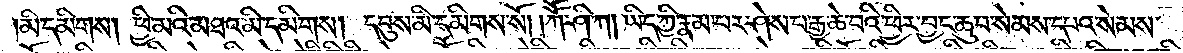མི་དམིགས། ཕྱི་མའི་མཐའ་མི་དམིགས། དབུས་མི་དམིགས་སོ། །ཀཽ་ཤི་ཀ། ཡིད་ཀྱི་རྣམ་པར་ཤེས་པ་རྒྱ་ཆེ་བའི་ཕྱིར་བྱང་ཆུབ་སེམས་དཔའ་སེམས་
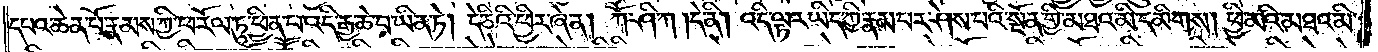དཔའ་ཆེན་པོ་རྣམས་ཀྱི་ཕ་རོལ་ཏུ་ཕྱིན་པ་འདི་རྒྱ་ཆེ་བ་ཡིན་ཏེ། དེ་ཅིའི་ཕྱིར་ཞེ་ན། ཀཽ་ཤི་ཀ །དེ་ནི། འདི་ལྟར་ཡིད་ཀྱི་རྣམ་པར་ཤེས་པའི་སྔོན་གྱི་མཐའ་མི་དམིགས། ཕྱི་མའི་མཐའ་མི་
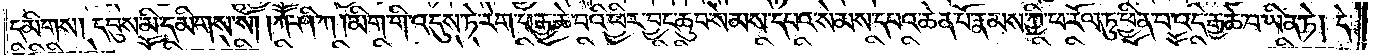དམིགས། དབུས་མི་དམིགས་སོ། །ཀཽ་ཤི་ཀ །མིག་གི་འདུས་ཏེ་རེག་པ་རྒྱ་ཆེ་བའི་ཕྱིར། བྱང་ཆུབ་སེམས་དཔའ་སེམས་དཔའ་ཆེན་པོ་རྣམས་ཀྱི་ཕ་རོལ་ཏུ་ཕྱིན་པ་འདི་རྒྱ་ཆེ་བ་ཡིན་ཏེ། དེ་
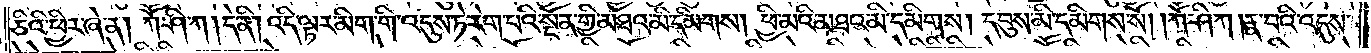ཅིའི་ཕྱིར་ཞེ་ན། ཀཽ་ཤི་ཀ །དེ་ནི། འདི་ལྟར་མིག་གི་འདུས་ཏེ་རེག་པའི་སྔོན་གྱི་མཐའ་མི་དམིགས། ཕྱི་མའི་མཐའ་མི་དམིགས། དབུས་མི་དམིགས་སོ། །ཀཽ་ཤི་ཀ །རྣ་བའི་འདུས་
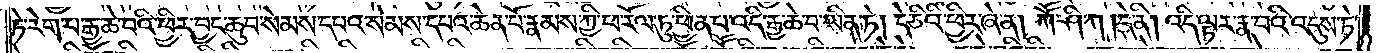ཏེ་རེག་པ་རྒྱ་ཆེ་བའི་ཕྱིར་བྱང་ཆུབ་སེམས་དཔའ་སེམས་དཔའ་ཆེན་པོ་རྣམས་ཀྱི་ཕ་རོལ་ཏུ་ཕྱིན་པ་འདི་རྒྱ་ཆེ་བ་ཡིན་ཏེ། དེ་ཅིའི་ཕྱིར་ཞེ་ན། ཀཽ་ཤི་ཀ །དེ་ནི། འདི་ལྟར་རྣ་བའི་འདུས་ཏེ་
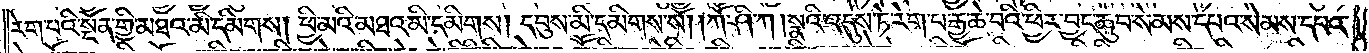རེག་པའི་སྔོན་གྱི་མཐའ་མི་དམིགས། ཕྱི་མའི་མཐའ་མི་དམིགས། དབུས་མི་དམིགས་སོ། །ཀཽ་ཤི་ཀ །སྣའི་འདུས་ཏེ་རེག་པ་རྒྱ་ཆེ་བའི་ཕྱིར་བྱང་ཆུབ་སེམས་དཔའ་སེམས་དཔའ་
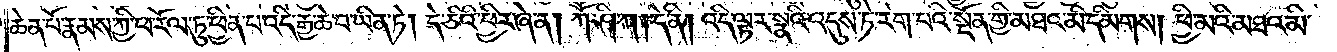ཆེན་པོ་རྣམས་ཀྱི་ཕ་རོལ་ཏུ་ཕྱིན་པ་འདི་རྒྱ་ཆེ་བ་ཡིན་ཏེ། དེ་ཅིའི་ཕྱིར་ཞེ་ན། ཀཽ་ཤི་ཀ །དེ་ནི། འདི་ལྟར་སྣའི་འདུས་ཏེ་རེག་པའི་སྔོན་གྱི་མཐའ་མི་དམིགས། ཕྱི་མའི་མཐའ་མི་
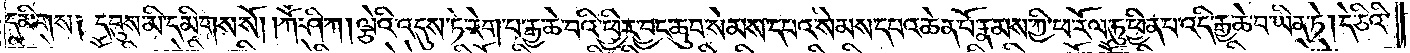དམིགས། དབུས་མི་དམིགས་སོ། །ཀཽ་ཤི་ཀ །ལྕེའི་འདུས་ཏེ་རེག་པ་རྒྱ་ཆེ་བའི་ཕྱིར་བྱང་ཆུབ་སེམས་དཔའ་སེམས་དཔའ་ཆེན་པོ་རྣམས་ཀྱི་ཕ་རོལ་ཏུ་ཕྱིན་པ་འདི་རྒྱ་ཆེ་བ་ཡིན་ཏེ། དེ་ཅིའི་
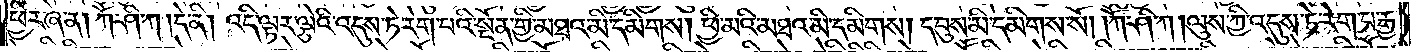ཕྱིར་ཞེ་ན། ཀཽ་ཤི་ཀ །དེ་ནི། འདི་ལྟར་ལྕེའི་འདུས་ཏེ་རེག་པའི་སྔོན་གྱི་མཐའ་མི་དམིགས། ཕྱི་མའི་མཐའ་མི་དམིགས། དབུས་མི་དམིགས་སོ། །ཀཽ་ཤི་ཀ །ལུས་ཀྱི་འདུས་ཏེ་རེག་པ་རྒྱ་
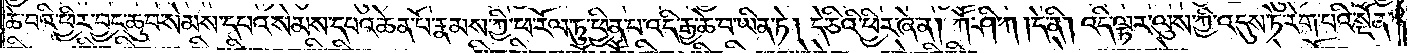ཆེ་བའི་ཕྱིར་བྱང་ཆུབ་སེམས་དཔའ་སེམས་དཔའ་ཆེན་པོ་རྣམས་ཀྱི་ཕ་རོལ་ཏུ་ཕྱིན་པ་འདི་རྒྱ་ཆེ་བ་ཡིན་ཏེ། དེ་ཅིའི་ཕྱིར་ཞེ་ན། ཀཽ་ཤི་ཀ །དེ་ནི། འདི་ལྟར་ལུས་ཀྱི་འདུས་ཏེ་རེག་པའི་སྔོན་
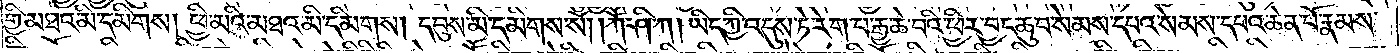གྱི་མཐའ་མི་དམིགས། ཕྱི་མའི་མཐའ་མི་དམིགས། དབུས་མི་དམིགས་སོ། །ཀཽ་ཤི་ཀ། ཡིད་ཀྱི་འདུས་ཏེ་རེག་པ་རྒྱ་ཆེ་བའི་ཕྱིར། བྱང་ཆུབ་སེམས་དཔའ་སེམས་དཔའ་ཆེན་པོ་རྣམས་
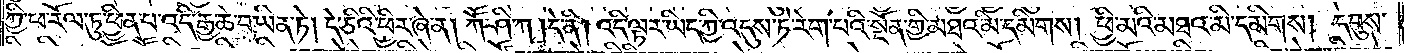ཀྱི་ཕ་རོལ་ཏུ་ཕྱིན་པ་འདི་རྒྱ་ཆེ་བ་ཡིན་ཏེ། དེ་ཅིའི་ཕྱིར་ཞེ་ན། ཀཽ་ཤི་ཀ །དེ་ནི། འདི་ལྟར་ཡིད་ཀྱི་འདུས་ཏེ་རེག་པའི་སྔོན་གྱི་མཐའ་མི་དམིགས། ཕྱི་མའི་མཐའ་མི་དམིགས། དབུས་
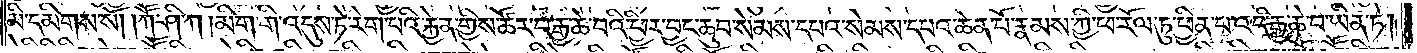མི་དམིགས་སོ། །ཀཽ་ཤི་ཀ །མིག་གི་འདུས་ཏེ་རེག་པའི་རྐྱེན་གྱིས་ཚོར་བ་རྒྱ་ཆེ་བའི་ཕྱིར་བྱང་ཆུབ་སེམས་དཔའ་སེམས་དཔའ་ཆེན་པོ་རྣམས་ཀྱི་ཕ་རོལ་ཏུ་ཕྱིན་པ་འདི་རྒྱ་ཆེ་བ་ཡིན་ཏེ།
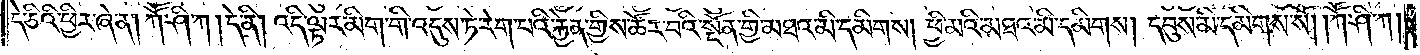དེ་ཅིའི་ཕྱིར་ཞེ་ན། ཀཽ་ཤི་ཀ །དེ་ནི། འདི་ལྟར་མིག་གི་འདུས་ཏེ་རེག་པའི་རྐྱེན་གྱིས་ཚོར་བའི་སྔོན་གྱི་མཐའ་མི་དམིགས། ཕྱི་མའི་མཐའ་མི་དམིགས། དབུས་མི་དམིགས་སོ། །ཀཽ་ཤི་ཀ །
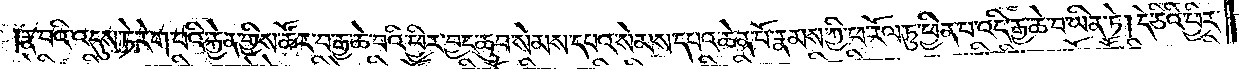རྣ་བའི་འདུས་ཏེ་རེག་པའི་རྐྱེན་གྱིས་ཚོར་བ་རྒྱ་ཆེ་བའི་ཕྱིར་བྱང་ཆུབ་སེམས་དཔའ་སེམས་དཔའ་ཆེན་པོ་རྣམས་ཀྱི་ཕ་རོལ་ཏུ་ཕྱིན་པ་འདི་རྒྱ་ཆེ་བ་ཡིན་ཏེ། དེ་ཅིའི་ཕྱིར་
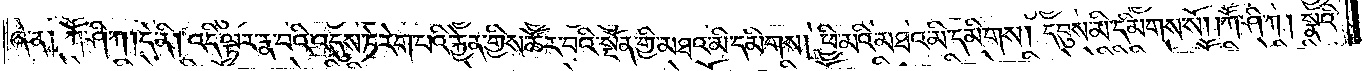ཞེ་ན། ཀཽ་ཤི་ཀ །དེ་ནི། འདི་ལྟར་རྣ་བའི་འདུས་ཏེ་རེག་པའི་རྐྱེན་གྱིས་ཚོར་བའི་སྔོན་གྱི་མཐའ་མི་དམིགས། ཕྱི་མའི་མཐའ་མི་དམིགས། དབུས་མ་དམིགས་སོ། །ཀཽ་ཤི་ཀ །སྣའི་
